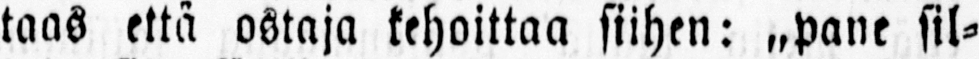taas että ostaja kehoittaa siihen: „pane sil-
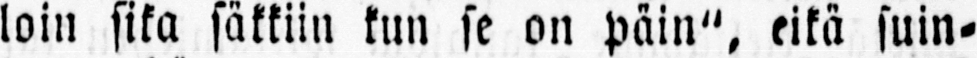loin sika säkkiin kun se on päin", eikä suin-
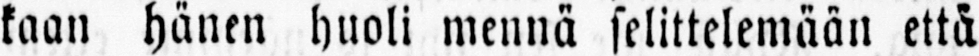kaan hänen huoli mennä selittelemään että
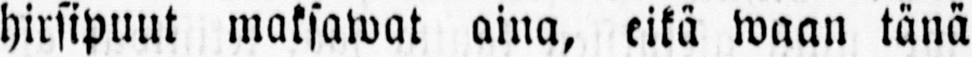hirsipuut maksawat aina, eikä waan tänä
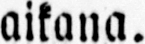aikana.
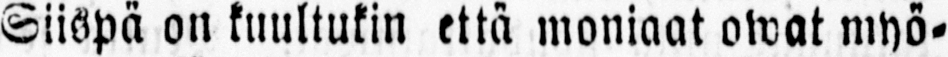Siispä on kuultukin että moniaat owat myö-
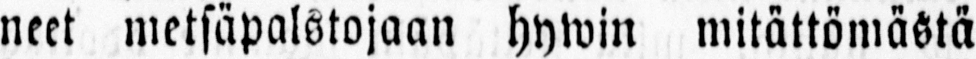neet metsäpalstojaan hywin mitättömästä
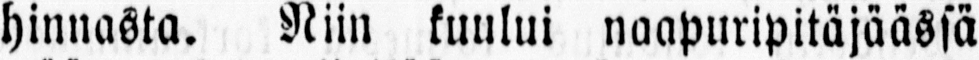hinnasta. Niin kuului naapuripitäjäässä
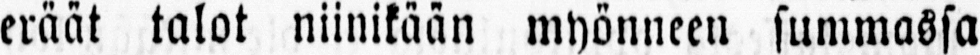eräät talot niinikään myönneen summassa
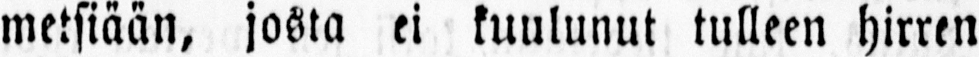metsiään, josta ei kuulunut tulleen hirren
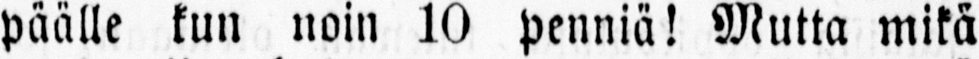päälle kun noin 10 penniä! Mutta mikä
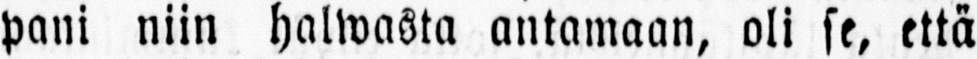pani niin halwasta antamaan, oli se, että
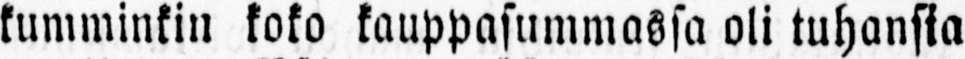kumminkin koko kauppasummassa oli tuhansia
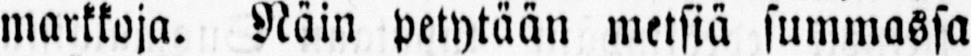markkoja. Näin petytään metsiä summassa
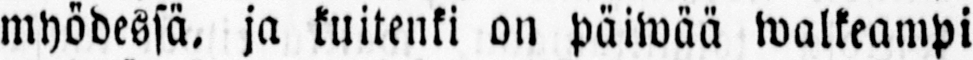myödessä. ja kuitenki on päiwää walkeampi
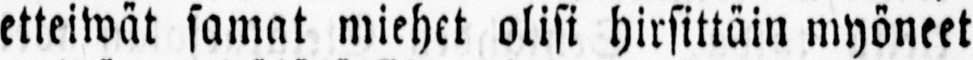etteiwät samat miehet olisi hirsittäin myöneet
